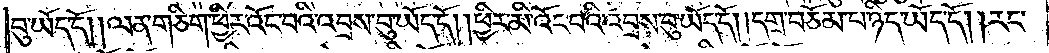བུ་ཡོད་དོ། །ལན་གཅིག་ཕྱིར་འོང་བའི་འབྲས་བུ་ཡོད་དོ། །ཕྱིར་མི་འོང་བའི་འབྲས་བུ་ཡོད་དོ། །དགྲ་བཅོམ་པ་ཉིད་ཡོད་དོ། །རང་
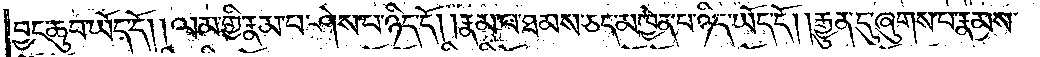བྱང་ཆུབ་ཡོད་དོ། །ལམ་གྱི་རྣམ་པ་ཤེས་པ་ཉིད་དོ། །རྣམ་པ་ཐམས་ཅད་མཁྱེན་པ་ཉིད་ཡོད་དོ། །རྒྱུན་དུ་ཞུགས་པ་རྣམས་
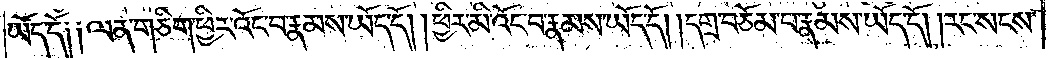ཡོད་དོ༑ ༑ལན་གཅིག་ཕྱིར་འོང་བ་རྣམས་ཡོད་དོ། །ཕྱིར་མི་འོང་བ་རྣམས་ཡོད་དོ། །དགྲ་བཅོམ་པ་རྣམས་ཡོད་དོ། །རང་སངས་
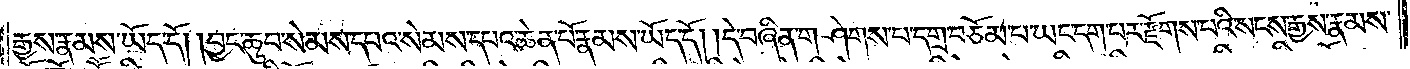རྒྱས་རྣམས་ཡོད་དོ། །བྱང་ཆུབ་སེམས་དཔའ་སེམས་དཔའ་ཆེན་པོ་རྣམས་ཡོད་དོ། །དེ་བཞིན་གཤེགས་པ་དགྲ་བཅོམ་པ་ཡང་དག་པར་རྫོགས་པའི་སངས་རྒྱས་རྣམས་
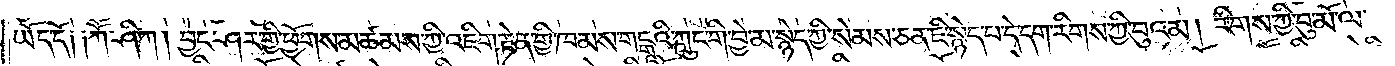ཡོད་དོ༑ ༑ཀཽ་ཤི་ཀ། བྱང་ཤར་གྱི་ཕྱོགས་མཚམས་ཀྱི་འཇིག་རྟེན་གྱི་ཁམས་གངྒཱའི་ཀླུང་གི་བྱེ་མ་སྙེད་ཀྱི་སེམས་ཅན་ཇི་སྙེད་པ་དེ་དག་རིགས་ཀྱི་བུའམ། རིགས་ཀྱི་བུ་མོ་ལ་
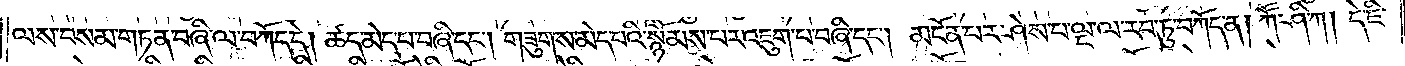ལས་བསམ་གཏན་བཞི་ལ་བཀོད་དེ། ཚད་མེད་པ་བཞི་དང༌། གཟུགས་མེད་པའི་སྙོམས་པར་འཇུག་པ་བཞི་དང༌། མངོན་པར་ཤེས་པ་ལྔ་ལ་རབ་ཏུ་བཀོད་ན། ཀཽ་ཤི་ཀ། དེ་ཇི་
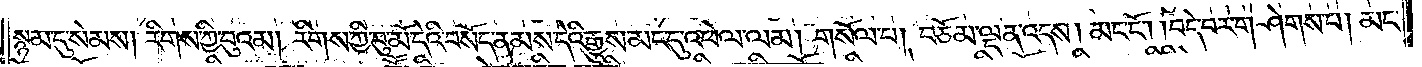སྙམ་དུ་སེམས། རིགས་ཀྱི་བུའམ། རིགས་ཀྱི་བུ་མོ་དེའི་བསོད་ནམས་དེའི་རྒྱུས་མང་དུ་འཕེལ་ལམ། གསོལ་པ། བཅོམ་ལྡན་འདས། མང་ངོ༌། །བདེ་བར་གཤེགས་པ། མང་
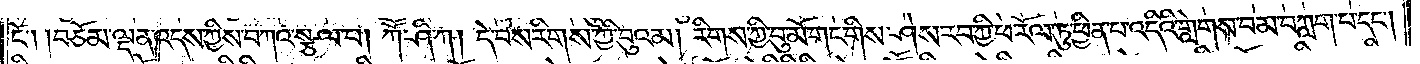ངོ༌། །བཅོམ་ལྡན་འདས་ཀྱིས་བཀའ་སྩལ་པ། ཀཽ་ཤི་ཀ། དེ་བས་རིགས་ཀྱི་བུའམ། རིགས་ཀྱི་བུ་མོ་གང་གིས་ཤེས་རབ་ཀྱི་ཕ་རོལ་ཏུ་ཕྱིན་པ་འདིའི་གླེགས་བམ་བཀླག་པ་དང༌།
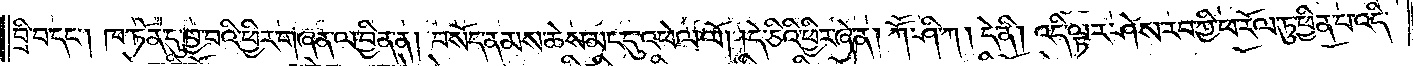བྲི་བ་དང༌། ཁ་ཏོན་དུ་བྱ་བའི་ཕྱིར་གཞན་ལ་བྱིན་ན། བསོད་ནམས་ཆེས་མང་དུ་འཕེལ་ལོ། །དེ་ཅིའི་ཕྱིར་ཞེ་ན། ཀཽ་ཤི་ཀ། དེ་ནི། འདི་ལྟར་ཤེས་རབ་ཀྱི་ཕལ་རོལ་ཏུ་ཕྱིན་པ་འདི་
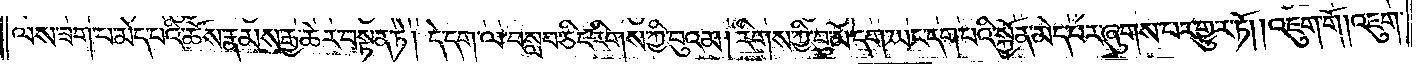ལས་ཟག་པ་མེད་པའི་ཆོས་རྣམས་རྒྱ་ཆེར་བསྟན་ཏེ། དེ་དག་ལ་བསླབ་ཅིང་རིགས་ཀྱི་བུའམ། རིགས་ཀྱི་བུ་མོ་དག་ཡང་དག་པའི་སྐྱོན་མེད་པར་ཞུགས་པར་གྱུར་ཏོ། །འཇུག་གོ །འཇུག་
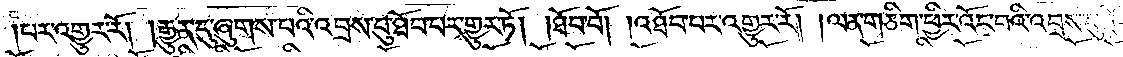པར་འགྱུར་རོ། །རྒྱུན་དུ་ཞུགས་པའི་འབྲས་བུ་ཐོབ་པར་གྱུར་ཏོ། །ཐོབ་བོ། འཐོབ་པར་འགྱུར་རོ། །ལན་གཅིག་ཕྱིར་འོང་བའི་འབྲས་བུ་ཐོབ་
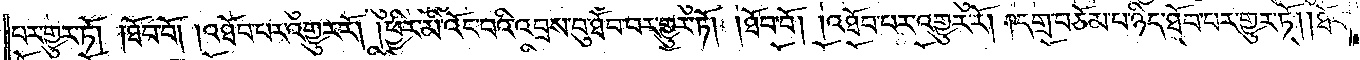པར་གྱུར་ཏོ། །ཐོབ་བོ། །འཐོབ་པར་འགྱུར་རོ། །ཕྱིར་མི་འོང་བའི་འབྲས་བུ་ཐོབ་བར་གྱུར་ཏོ། །ཐོབ་བོ། །འཐོབ་པར་འགྱུར་རོ། །དགྲ་བཅོམ་པ་ཉིད་ཐོབ་པར་གྱུར་ཏོ། །ཐོབ་
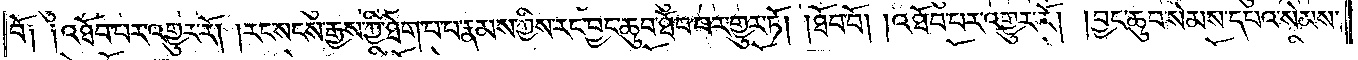བོ༑ ༑འཐོབ་པར་འགྱུར་རོ། །རང་སངས་རྒྱས་ཀྱི་ཐེག་པ་པ་རྣམས་ཀྱིས་རང་བྱང་ཆུབ་ཐོབ་པར་གྱུར་ཏོ། །ཐོབ་བོ། །འཐོབ་པར་འགྱུར་རོ། །བྱང་ཆུབ་སེམས་དཔའ་སེམས་
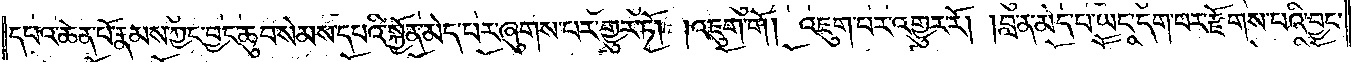དཔའ་ཆེན་པོ་རྣམས་ཀྱང་བྱང་ཆུབ་སེམས་དཔའི་སྐྱོན་མེད་པར་ཞུགས་པར་གྱུར་ཏོ། །འཇུག་གོ། འཇུག་པར་འགྱུར་རོ། །བླ་ན་མེད་པ་ཡང་དག་པར་རྫོགས་པའི་བྱང་
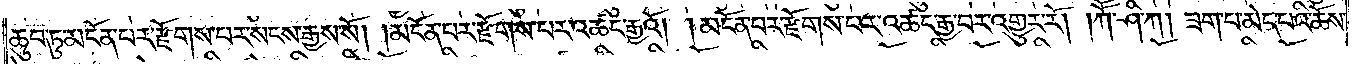ཆུབ་ཏུ་མངོན་པར་རྫོགས་པར་སངས་རྒྱས་སོ། །མངོན་པར་རྫོགས་པར་འཚང་རྒྱའོ། །མངོན་པར་རྫོགས་པར་འཚང་རྒྱ་བར་འགྱུར་རོ། །ཀཽ་ཤི་ཀ། ཟག་པ་མེད་པའི་ཆོས་
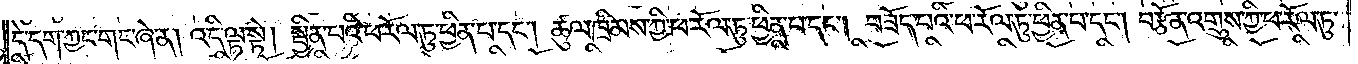དེ་དག་ཀྱང་གང་ཞེ་ན། འདི་ལྟ་སྟེ། སྦྱིན་པའི་ཕ་རོལ་ཏུ་ཕྱིན་པ་དང༌། ཚུལ་ཁྲིམས་ཀྱི་ཕ་རོལ་ཏུ་ཕྱིན་པ་དང༌། བཟོད་པའི་ཕ་རོལ་ཏུ་ཕྱིན་པ་དང༌། བརྩོན་འགྲུས་ཀྱི་ཕ་རོལ་ཏུ་
